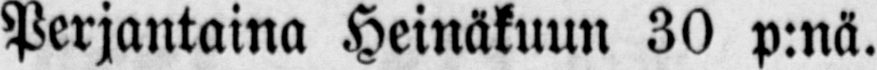Perjantaina Heinäkuun 30 p:nä.
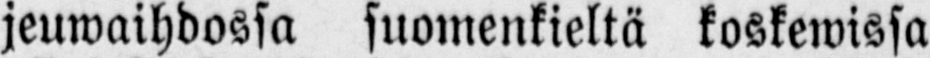jeuwaihdossa suomenkieltä koskewissa
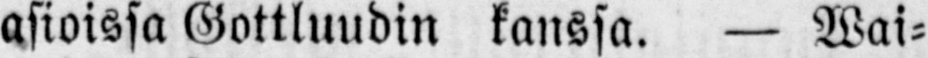asioissa Gottlundin kanssa. — Wai-
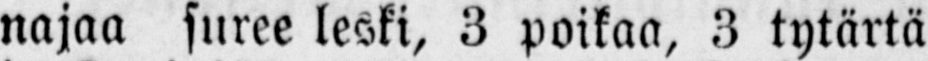najaa suree leski, 3 poikaa, 3 tytärtä
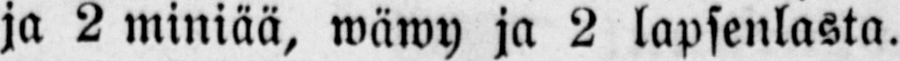ja 2 miniää, wäwy ja 2 lapsenlasta.
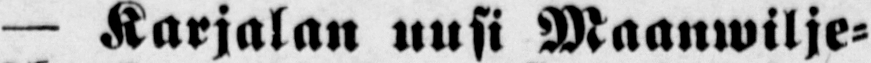— Karjalan uusi Maanwilje-
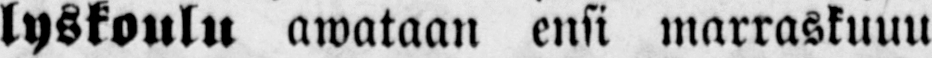lyskoulu awataan ensi marraskuuu
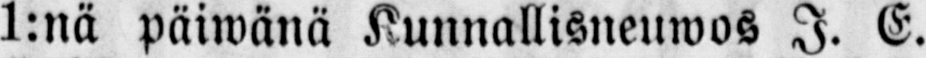1:nä päiwänä Kunnallisneuwos I. E.
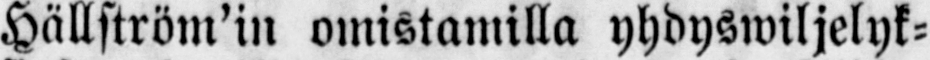Hällström'in omistamilla yhdyswiljelyk-
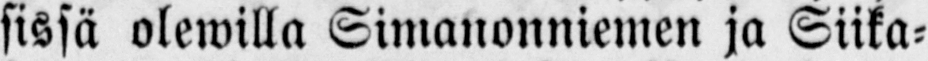sissä olewilla Simanonniemen ja Siika-
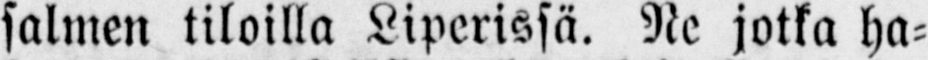salmen tiloilla Liperissä. Ne jotka ha-
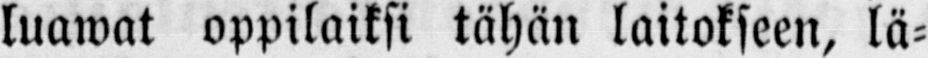luawat oppilaiksi tähän laitokseen, lä-
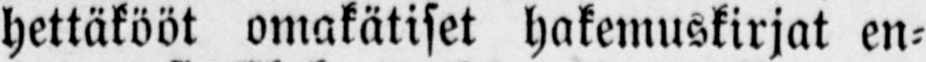hettäkööt omakätiset hakemuskirjat en-
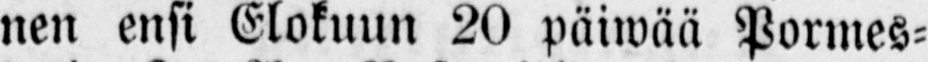nen ensi Elokuun 20 päiwää Pormes-
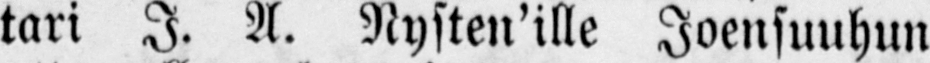tari J. A. Nysten'ille Joensuuhun
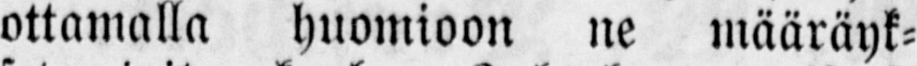ottamalla huomioon ne määräyk-
